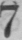7
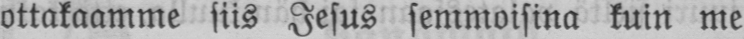ottakaamme siis Jesus semmoisina kuin me
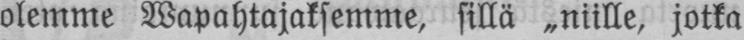olemme Wapahtajaksemme, sillä „niille, jotka
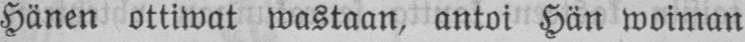Hänen ottiwat wastaan, antoi Hän woiman
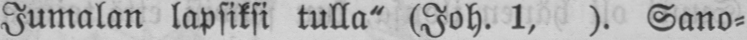Jumalan lapsiksi tulla" (Joh. 1, ). Sano-
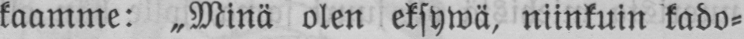kaamme: „Minä olen eksywä, niinkuin kado-
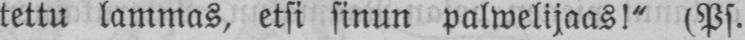tettu lammas, etsi sinun palwelijaas!" (Ps.
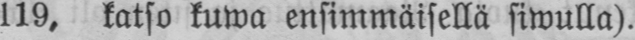l19, katso kuwa ensimmäisellä siwulla).
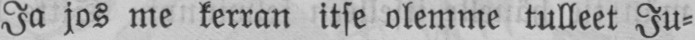Ja jos me kerran itse olemme tulleet Ju-
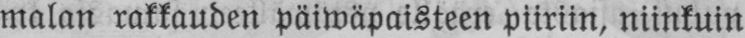malan rakkauden päiwäpaisteen piiriin, niinkuin
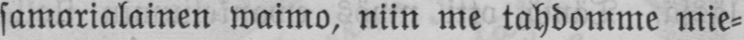samarialainen waimo, niin me tahdomme mie-
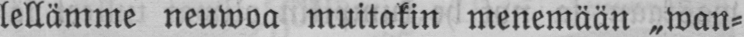lellämme neuwoa muitakin menemään „wan-
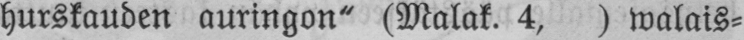hurskauden auringon" (Malak. 4, ) walais-
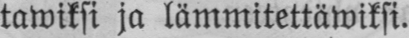tawiksi ja lämmitettäwiksi.
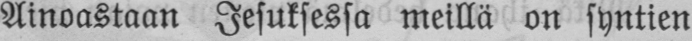Ainoastaan Jesuksessa meillä on syntien
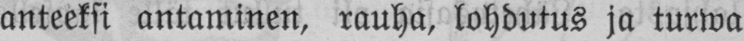anteeksi antaminen, rauha, lohdutus ja turwa
